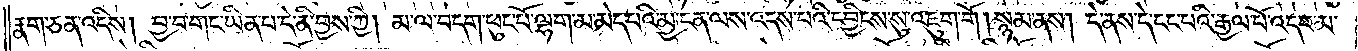རྣག་ཅན་འདིས། བྱ་བ་གང་ཡིན་པ་དེ་ནི་བྱས་ཀྱི། མ་ལ་བདག་ཕུང་པོ་ལྷག་མ་མེད་པའི་མྱ་ངན་ལས་འདས་པའི་དབྱིངས་སུ་འཇུག་གོ །སྙམ་ནས། དེ་ནས་དེ་ངང་པའི་རྒྱལ་པོ་འདབ་མ་
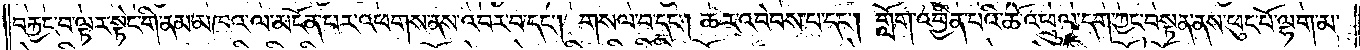བརྐྱང་བ་ལྟར་སྟེང་གི་ནམ་མཁའ་ལ་མངོན་པར་འཕགས་ནས་འབར་བ་དང༌། གསལ་བ་དང༌། ཆར་འབེབས་པ་དང༌། གློག་འབྱིན་པའི་ཆོ་འཕྲུལ་དག་ཀྱང་བསྟན་ནས་ཕུང་པོ་ལྷག་མ་
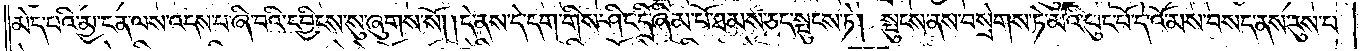མེད་པའི་མྱ་ངན་ལས་འདས་པ་ཞི་བའི་དབྱིངས་སུ་ཞུགས་སོ། །དེ་ནས་དེ་དག་གིས་ཤིང་དྲི་ཞིམ་པོ་ཐམས་ཅད་སྤུངས་ཏེ། སྤུངས་ནས་བསྲེགས་ཏེ་མེའི་ཕུང་པོ་དེ་འོ་མས་བསད་ནས་རུས་པ་
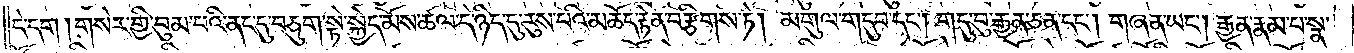དེ་དག །གསེར་གྱི་བུམ་པའི་ནང་དུ་བཅུག་སྟེ་སྐྱེད་མོས་ཚལ་དེ་ཉིད་དུ་རུས་པའི་མཆོད་རྟེན་བརྩིགས་ཏེ། མགུལ་གདུབ་དང༌། གདུ་བུ་རྒྱན་ཅན་དང༌། གཞན་ཡང༌། རྒྱན་རྣམ་པ་སྣ་
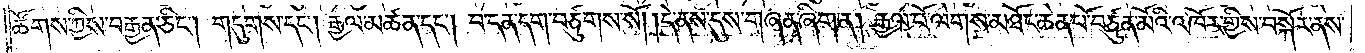ཚོགས་ཀྱིས་བརྒྱན་ཅིང༌། གདུགས་དང༌། རྒྱལ་མཚན་དང༌། བ་དན་དག་བཙུགས་སོ། །དེ་ནས་དུས་གཞན་ཞིག་ན། རྒྱལ་པོ་ལེགས་མཐོང་ཆེན་པོ་བཙུན་མོའི་འཁོར་གྱིས་བསྐོར་ནས་
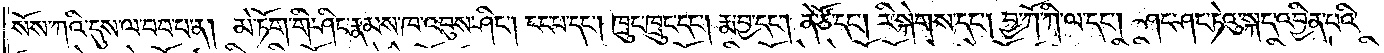སོས་ཀའི་དུས་ལ་བབ་པ་ན། མེ་ཏོག་གི་ཤིང་རྣམས་ཁ་འབུས་ཤིང༌། ངང་པ་དང༌། ཁྲུང་ཁྲུང་དང༌། རྨ་བྱ་དང༌། ནེ་ཙོ་དང༌། རི་སྐེགས་དང༌། བྱ་ཀོ་ཀི་ལ་དང༌། ཤང་ཤང་ཏེའུ་སྐད་འབྱིན་པའི་
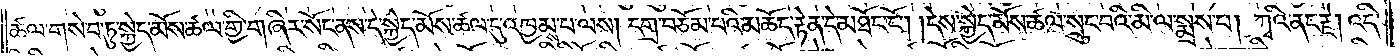ཚལ་གསེབ་ཏུ་སྐྱེད་མོས་ཚལ་གྱི་གཞིར་སོང་ནས་དེ་སྐྱེད་མོས་ཚལ་དུ་འཁྱམས་པ་ལས། དགྲ་བཅོམ་པའི་མཆོད་རྟེན་དེ་མཐོང་ངོ༌། །དེས་སྐྱེད་མོས་ཚལ་སྲུང་བའི་མི་ལ་སྨྲས་པ། ཀྭའི་ནང་རྗེ། འདི་
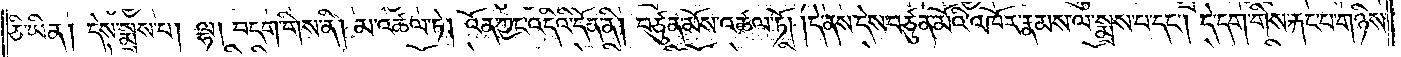ཅི་ཡིན། དེས་སྨྲས་པ། ལྷ། བདག་གིས་ནི། མ་འཚལ་ཏེ། འོན་ཀྱང་འདིའི་དོན་ནི། བཙུན་མོས་འཚལ་ཏོ། །དེ་ནས་དེས་བཙུན་མོའི་འཁོར་རྣམས་ལ་སྨྲས་པ་དང༌། དེ་དག་གིས་རྐང་པ་གཉིས་
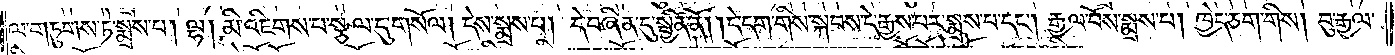ལ་གཏུགས་ཏེ་སྨྲས་པ། ལྷ། མི་འཇིགས་པ་སྩལ་དུ་གསོལ། །དེས་སྨྲས་པ། དེ་བཞིན་དུ་སྦྱིན་ནོ། །དེ་དག་གིས་སྐབས་དེ་རྒྱས་པར་སྨྲས་པ་དང༌། རྒྱལ་པོས་སྨྲས་པ། ཁྱེད་ཅག་གིས། བུ་རྒྱལ་
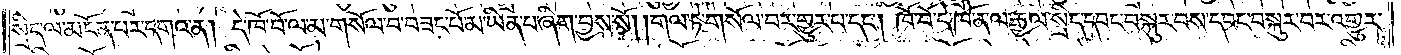སྲིད་ལ་མངོན་པར་དགའ་ན། དེ་ཁོ་བོ་ལ་མ་གསོལ་བ་བཟང་པོ་མ་ཡིན་པ་ཞིག་བྱས་སོ། །གལ་ཏེ་གསོལ་བར་གྱུར་པ་དང༌། ཁོ་བོ་དེ་ཁོ་ན་ལ་རྒྱལ་སྲིད་དབང་བསྐུར་བས་དབང་བསྐུར་བར་འགྱུར་
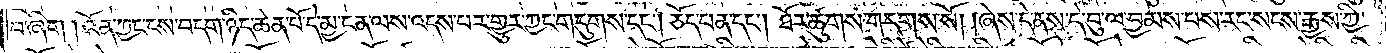བ་ཞིག །འོན་ཀྱང་ངས་བདག་ཉིད་ཆེན་པོ་དེ་མྱ་ངན་ལས་འདས་པར་གྱུར་ཀྱང་གདུགས་དང༌། ཅོད་པན་དང༌། ཐོར་ཚུགས་གདགས་སོ། །ཞེས་དེ་ནས་དེ་བུ་ལ་བྱམས་པས་རང་སངས་རྒྱས་ཀྱི་
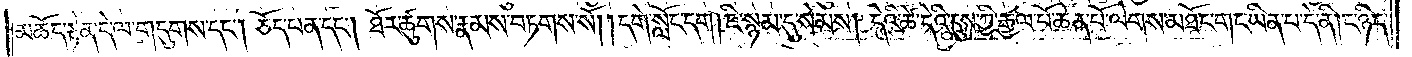མཆོད་རྟེན་དེ་ལ་གདུགས་དང༌། ཅོད་པན་དང༌། ཐོར་ཚུགས་རྣམས་བཏགས་སོ། །དགེ་སློང་དག །ཇི་སྙམ་དུ་སེམས། དེའི་ཚེ་དེའི་དུས་ཀྱི་རྒྱལ་པོ་ཆེན་པོ་ལེགས་མཐོང་གང་ཡིན་པ་དེ་ནི། ང་ཉིད་
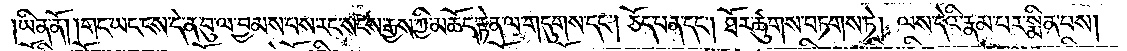ཡིན་ནོ། །གང་ཡང་ངས་དེ་ན་བུ་ལ་བྱམས་པས་རང་སངས་རྒྱས་ཀྱི་མཆོད་རྟེན་ལ་གདུགས་དང༌། ཅོད་པན་དང༌། ཐོར་ཚུགས་བཏགས་ཏེ། ལས་དེའི་རྣམ་པར་སྨིན་པས།
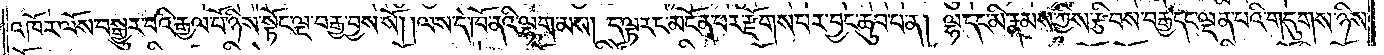འཁོར་ལོས་བསྒྱུར་བའི་རྒྱལ་པོ་ཉིས་སྟོང་ལྔ་བརྒྱ་བྱས་སོ། །ལས་དེ་ཁོ་ནའི་ལྷག་མས། ད་ལྟར་ང་མངོན་པར་རྫོགས་པར་བྱང་ཆུབ་པ་ན། ལྷ་དང་མི་རྣམས་ཀྱིས་རྩིབས་བརྒྱ་དང་ལྡན་པའི་གདུགས་ཉིས་
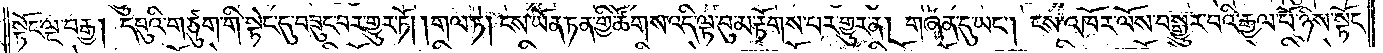སྟོང་ལྔ་བརྒྱ། དབུའི་གཙུག་གི་སྟེང་དུ་བཟུང་བར་གྱུར་ཏོ། །གལ་ཏེ། ངས་ཡོན་ཏན་གྱི་ཚོགས་འདི་ལྟ་བུ་མ་རྟོགས་པར་གྱུར་ན། གཞན་དུ་ཡང༌། ངས་འཁོར་ལོས་བསྒྱུར་བའི་རྒྱལ་པོ་ཉིས་སྟོང་
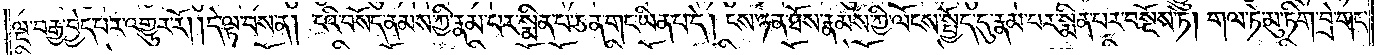ལྔ་བརྒྱ་བྱེད་པར་འགྱུར་རོ། །དེ་ལྟ་བས་ན། ངའི་བསོད་ནམས་ཀྱི་རྣམ་པར་སྨིན་པ་ཅན་གང་ཡིན་པ་དེ། ངས་ཉན་ཐོས་རྣམས་ཀྱི་ལོངས་སྤྱོད་དུ་རྣམ་པར་སྨིན་པར་བསྔོས་ཏེ། གལ་ཏེ་མུ་ཏིག་བྲེ་གང་
